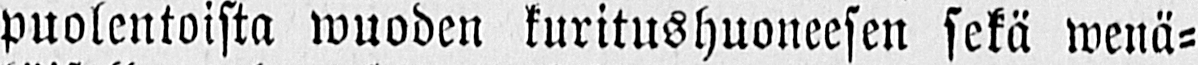puolentoista wuoden kuritushuoneesen sekä wenä-
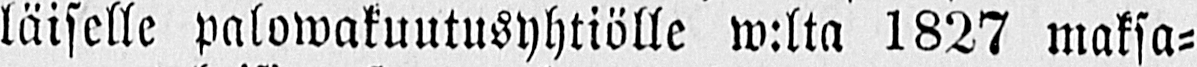läiselle palowakuutusyhtiölle w:lta 1827 maksa-
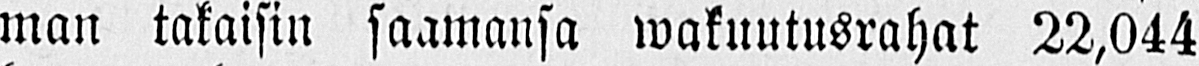man takaisin saamansa wakuutusrahat 22,044
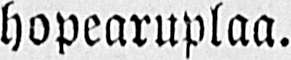hopearuplaa.
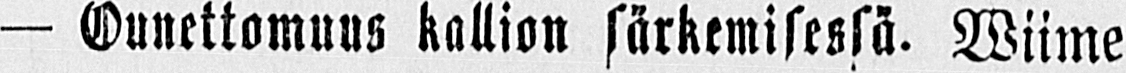— Onnettomuus kallion särkemisessä. Wiime
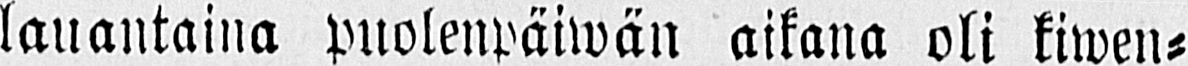lauantaina puolenpäiwän aikana oli kiwen-
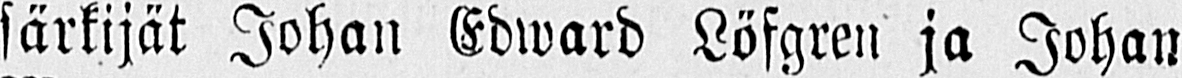särkijät Johan Edward Löfgren ja Johan
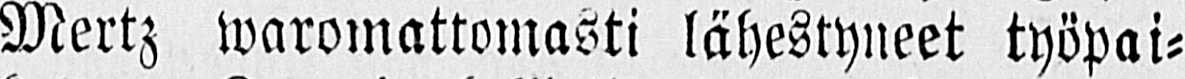Mertz waromattomasti lähestyneet työpai-
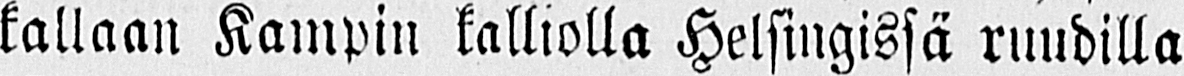kallaan Kampin kalliolla Helsingissä ruudilla
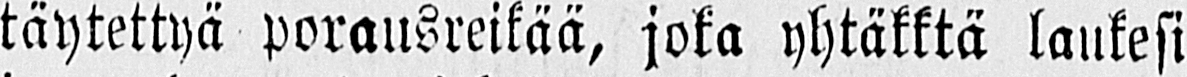täytettyä porausreikää, joka yhtäkktä laukesi
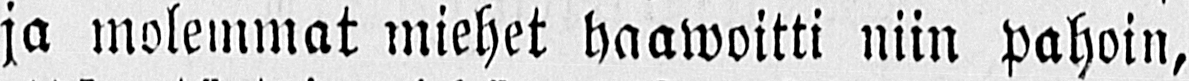ja molemmat miehet haawoitti niin pahoin,
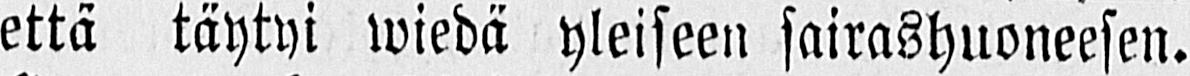että täytyi wiedä yleiseen sairashuoneesen.
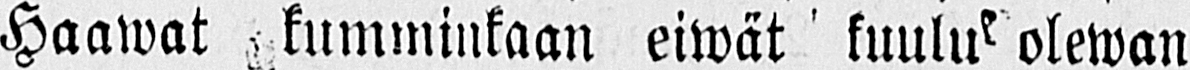Haawat kumminkaan eiwät kuulu olewan
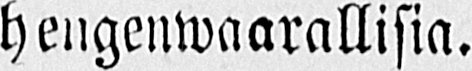hengenwaarallisia.
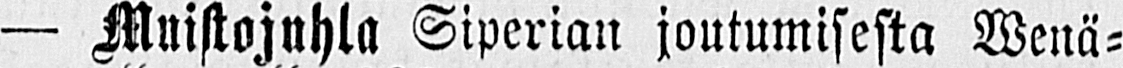— Muistojuhla Siperian joutumisesta Wenä-
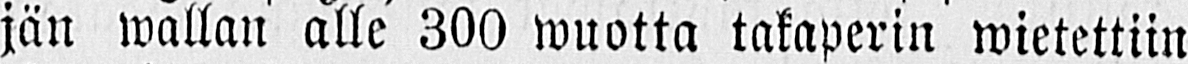jän wallan alle 300 wuotta takaperin wietettiin
